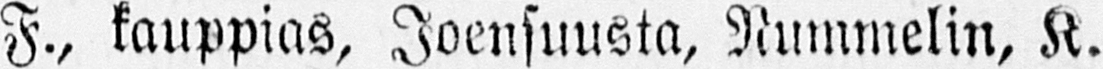F., kauppias. Joensuusta, Nummelin, K.
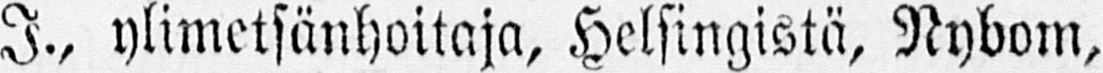I. ylimetsänhoitaja, Helsingistä, Nybom,
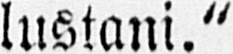lustani."
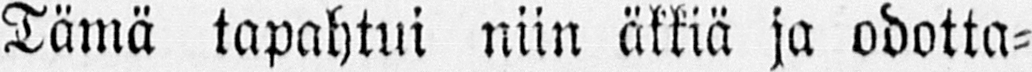Tämä tapahtui niin äkkiä ja odotta-
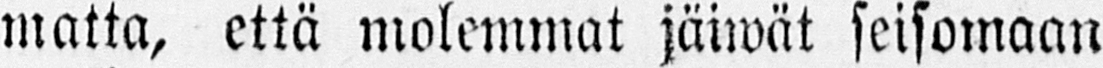matta, että molemmat jääwät seisomaan
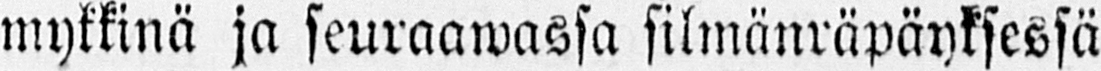mykkinä ja seuraawassa silmänräpäyksessä
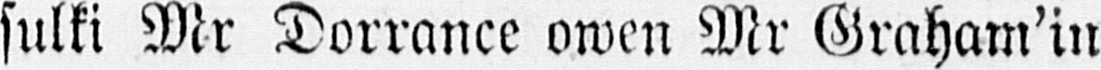sulki Mr Dorrance owen Mr Graham'in
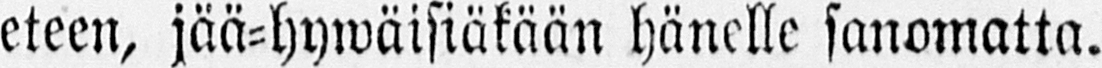eteen, jää-hywäisiäkään hänelle sanomatta.
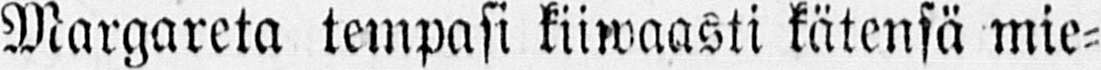Margareta tempasi kiiwaasti kätensä mie-
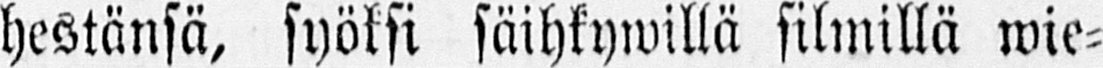hestänsä, syöksi säihkywillä silmillä wie-
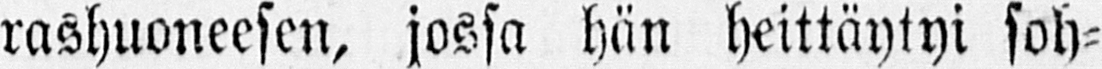rashuoneesen, jossa hän heittäytyi soh-
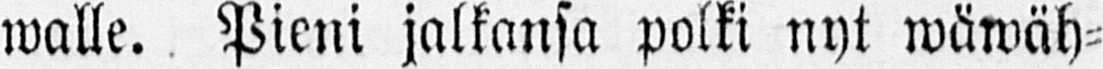walle. Pieni jalkansa polki nyt wäwäh-
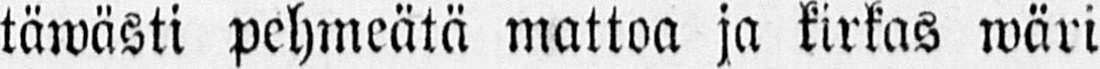täwästi pehmeätä mattoa ja kirkas wäri
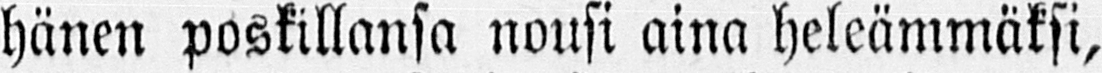hänen poskillansa nousi aina heleämmäksi,
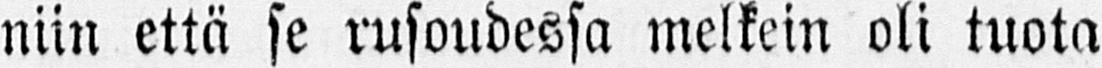niin että se rusoudessa melkein oli tuota
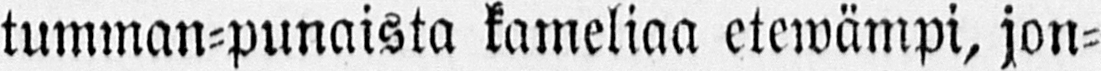tumman-punaista kameliaa etewämpi, jon-
